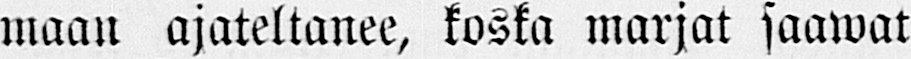maan ajateltanee, koska marjat saawat
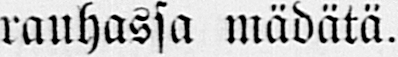rauhassa mädätä.
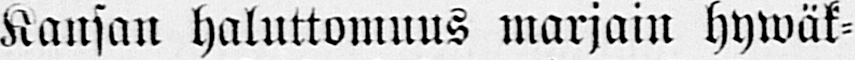Kansan haluttomuus marjain hywäk-
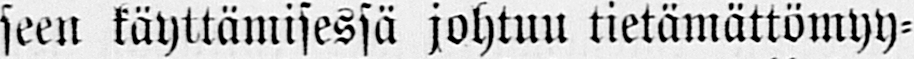seen käyttämisessä johtuu tietämättömyy-
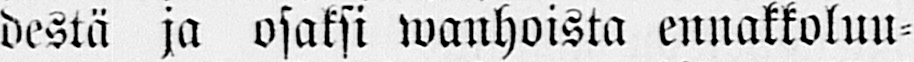destä ja osaksi wanhoista ennakkoluu-
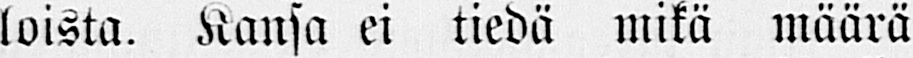loista. Kansa ei tiedä mikä määrä
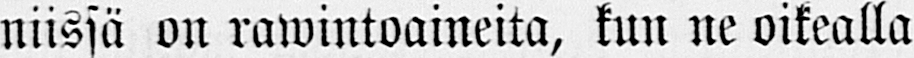niissä on rawintoaineita, kun ne oikealla
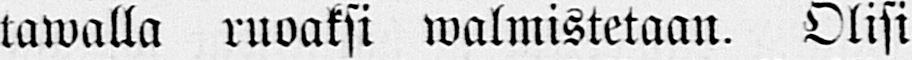tawalla ruoaksi walmistetaan. Olisi
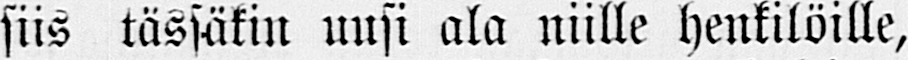siis tässäkin uusi ala niille henkilöille,
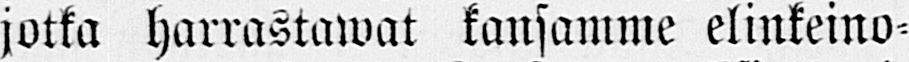jotka harrastawat kansamme elinkeino-
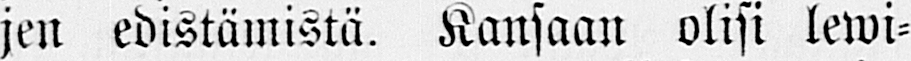jen edistämistä. Kansaan olisi lewi-
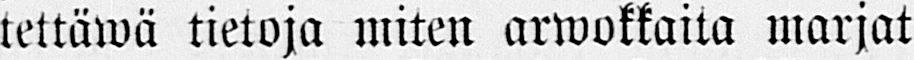tettäwä tietoja miten arwokkaita marjat
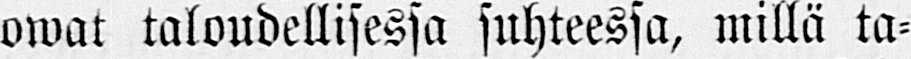owat taloudellisessa suhteessa, millä ta-
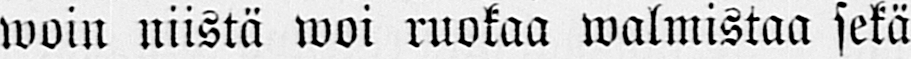woin niistä woi ruokaa walmistaa sekä
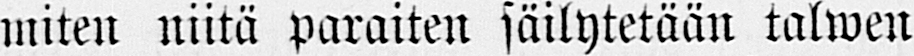miten niitä paraiten säilytetään talwen
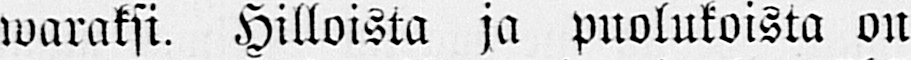waraksi. Hilloista ja puolukoista on
